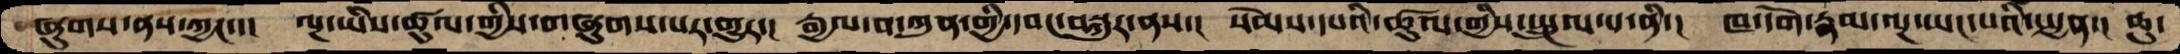ཞུགས་ནས་ཀྱང་་།  ལྔ་ཡིས་ཚུལ་གྱིས་གཞུགས་པར་གྱུར་།  རྒྱལ་བ་ཀུན་གྱི་དབང་བསྐུར་ནས་།  སེམས་དཔའི་ཚུལ་གྱིས་སྤྲུལ་པ་ནི་།  ཁ་དོག་རྣམ་ལྔ་ཡང་པའི་སྤྱན་།  ཆུ་
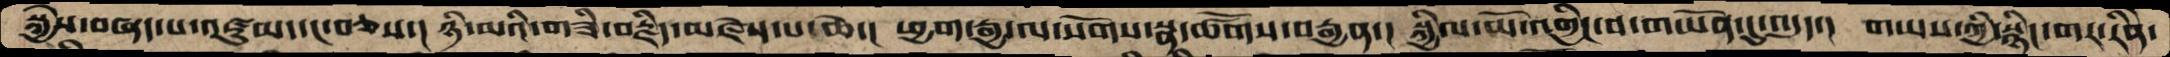སྐྱེས་བཞད་པ་འཛུམ་དང་བཅས་།  ཉི་མའི་གཟི་བརྗིད་མཛེས་པ་ཆེ་།  ཕྱག་རྒྱ་ལ་སོགས་སྣ་ཚོགས་བརྒྱན་།  སྐྱིལ་མོ་འགྱིང་བ་གཡོན་དུ་འདུད་།  གཡས་ཀྱི་སྙིང་གར་རིནེ་
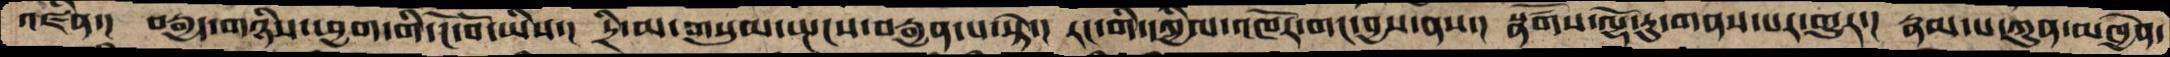འཛིན་།  བརྒྱད་གཉིས་ཕྱག་གི་ངོ་བོ་ཡིས་།  དྲི་མ་གསུམ་སྤངས་བརྒྱན་པ་སྟེ་།  རང་གི་དཀྱིལ་འཁོར་གང་བྱས་ནས་།  སྣོ༹གས་ལྷོ་རུ་གནས་པར་འགྱུར་།  རྣམ་པ་ཀུན་མཁྱེན་
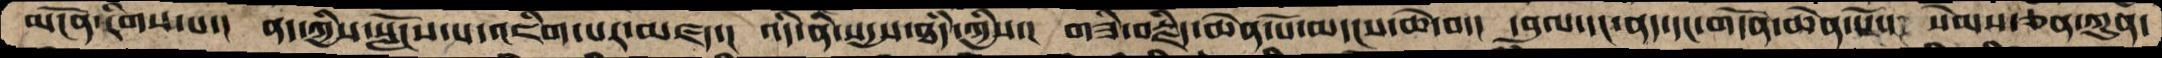མངོན་རིགས་པ་།  ནད་ཀྱིས་སློངས་པ་འཇིག་པར་མཛད་།  འདི་ནི་སདྱས་ཐཾད་ཀྱིས་།  གཟི་བརྗིད་ཆེན་པོ་མདངས་ཆེ་བ་།  དབུལ་དང་ནད་དང་གདོན་ཆེན་པོས  སེམས་ཅན་ཀུན་
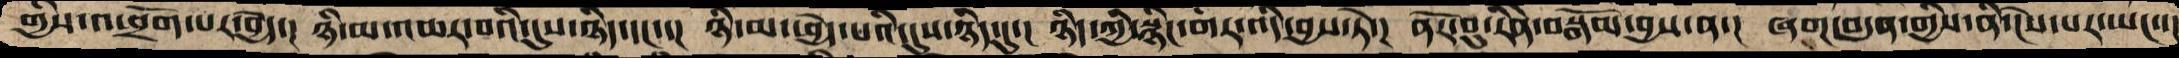གྱིས་འཕྲོག་པར་བྱེད་།  ཉི་མ་འཆར་བའི་དུས་ཉིད་དང་་།  ཉི་མ་ཕྱེད་པའི་དུས་ཉིད་དུ་།  ཉིད་ཀྱི་སྙིང་གར་འདི་བྱས་ཏེ་།  ནོར་བུ་རིེན་བསྒོམ་བྱས་ན་།  ཞག་བདུན་གྱིས་ནི་ངེས་པར་ཡང་་།
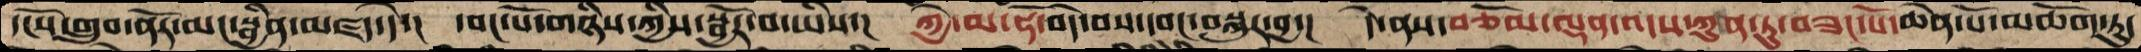དངོས་གྲུབ་ནོར་མང་སྦྱིན་མཛད་དེ་།  དབང་པོ་གཉིས་ཀྱིས་སྦྱོར་བ་ཡིས་།  ཀྱེ་མ་ཧོ་བདེ་བས་དབང་བསྐུར་བྱ་།  དེ་ནས་བཅོམ་ལྡན་འདས་ཀུན་ཏུ་བཟང་པོ་ཆེན་པོ་མཆོག་ཏུ་
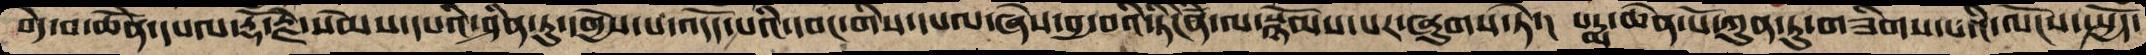བདེ་བ་ཆེནོ་དཔལ་རྡོ་རྗེ་སེམས་དཔའི་ཤིན་ཏུ་དགྱེས་པ་འདོད་པའི་དབང་གིས་དཔལ་ཞེས་བྱ་བའི་ཏིངེནི་ལ་སྙོམས་པར་ཞུགས་ཏེ་།  པདྨ་ཆེན་པོ་ཀུན་ཏུ་གཟིགས་པའི་ལོངས་སྤྱོད་
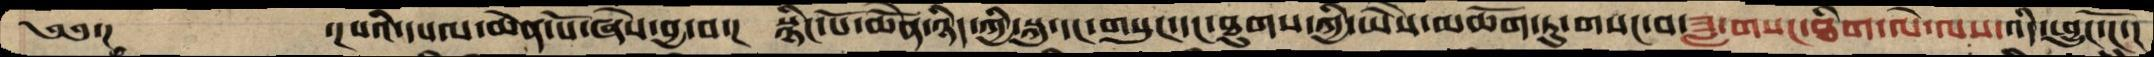༄༅་།       ་།པའི་དཔལ་ཆེན་པོ་ཞེས་བྱ་བ་།  སྙིང་པོ་ཆེནོ་ཉིད་ཀྱི་སྐུ་དང་གསུང་དང་ཐུགས་ཀྱི་ཡཻས་མཆོག་ཏུ་གསང་བ་ཟླ་གསང་ཐིག་ལེ་ལས་འདི་ཕྱུང་ངོ་།
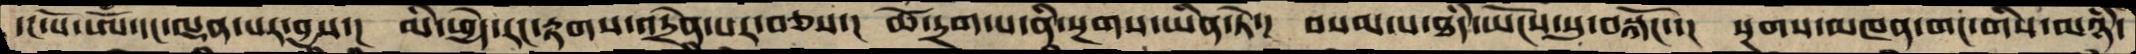དང་པོ་ཨོཾ་དང་ལྡན་པར་བྱས་།  མི་ཕྱེད་རང་རྟགས་འདྲེན་པར་བཅས་།  ཚེ་དྲག་པ་ནི་སྔགས་ཡིན་ཏེ་།  བསམ་པ་ཐཾད་ཡོངས་སུ་བསྐོང་་།  སྔགས་མཁན་གང་གིས་མཉཾ་
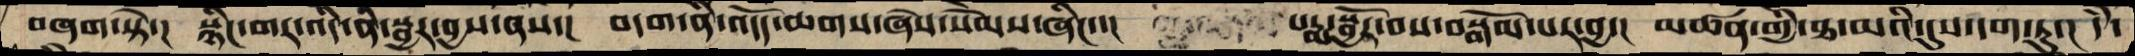བཞག་སྟེ་།  སྙིང་གར་འདི་ནི་སྦྱར་བྱས་ནས་།  བདག་ནི་འདོད་ཆགས་ཞེས་སེམས་ཞིང་།  པདྨ་སྦྱོར་བས་བསྒོམ་པར་བྱ་།  མཚན་གྱི་ཐ་མའི་དུས་དག་ཏུ་།  དཾ་
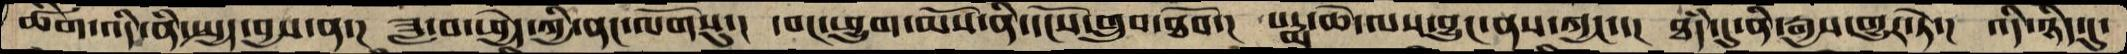ཚིག་འདི་ནི་སྤྱད་བྱས་ན་།  ཟླ་བ་ཕྱེད་ཀྱི་ནང་ལོགསུ་།  དབང་ཕྱུག་མོས་ནི་དངོས་གྲུབ་ཐོབ་།  པདྨ་ཆེ་ལས་བྱུང་ནས་ཀྱང་་།  ཐཾད་དུ་ནི་རྒྱས་གྱུར་ཏེ་།  འདི་ཉིད་དུ་
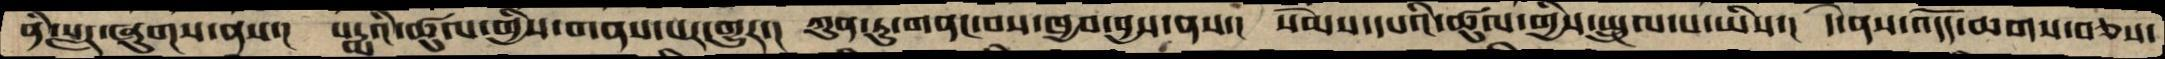ནི་སླར་ཞུགས་ནས་།  པདྨའི་ཚུལ་གྱིས་གནས་པར་གྱུར་།  ཀུན་ཏུ་གནང་བས་ཁྱབ་བྱས་ནས་།  སེམས་དཔའི་ཚུལ་གྱིས་སྤྲུལ་པ་ཡིས་།  དེ་ནས་འདོད་ཆགས་བཅས་
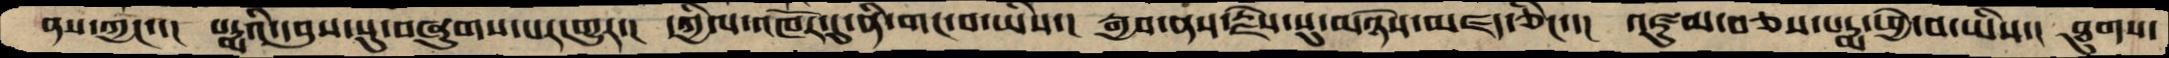ནས་ཀྱང་་།  པདྨའི་དབུས་སུ་བཞུགས་པར་གྱུར་།  དཀྱིལ་འཁོར་དུ་ནི་གང་བ་ཡིས་།  རྒྱབ་ནས་རྗེས་སུ་མཉེས་མཛད་ཅིང་་།  འཛུམ་བཅས་པདྨ་ཕྱེ་བ་ཡིས་།  ཐུགས་
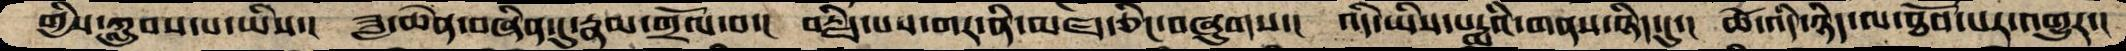གྱིས་ཀླུབས་པ་ཡིས་།  ཟླ་ཆེན་བཞིན་དུ་རྣམ་གྲོལ་བ་།  བརྗིད་པས་གར་ནི་མཛད་ཅིང་བཞུགས་།  འདི་ཡིས་པདྨའི་གནས་ཉིད་དུ་།  ཚེ་འདི་ཉིད་ལ་ཐོབ་པར་འགྱུར་།
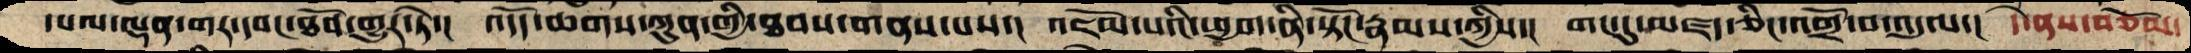དཔལ་ལྡན་གར་དབང་ཐོབ་གྱུར་ཏེ་།  འདོད་ཆགས་ཀུན་གྱི་ཐབས་གནས་པས་།  འཇོམ་པའི་ཕྱག་ནི་སྟོང་རྣམས་ཀྱིས་།  གང་དུ་མཛད་ཅིང་འགྲོ་བ་འདུལ་།  དེ་ནས་བཅོམ་
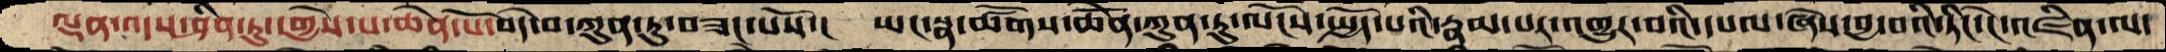ལྡན་འདས་ཤིན་ཏུ་དགྱེས་པ་ཆེན་པོ་བདེ་བ་ཀུན་ཏུ་བཟང་པོས་།  ཡང་སྣ་ཚོགས་ཆེནོ་ཀུན་ཏུ་ལོངས་སྤྱོད་པའི་རྣམ་པར་འགྱུར་བའི་དཔལ་ཞེས་བྱ་བའི་ཏིང་ངེ་འཛིན་ལ་
